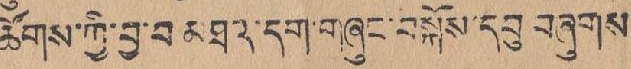ཆོགས་ཀྱི་བྱ་བ་མཐའ་དག་གཞུང་བསྐོས་དབུ་བཞུགས་
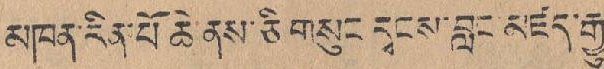མཁན་རིན་པོ་ཆེ་ནས་ཅི གསུང དྭངས་བླང་མཛད་རྒྱུ་
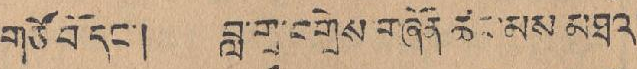གཙོ་བོ་དང་། བླ་གྲྭ་བགྲེས་གཞོན་ཚང་མས མཐའ་
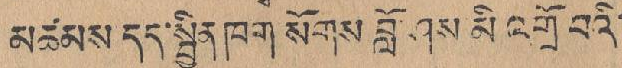མཚམས་དད་སྤྱིན་ཁག སོགས་བློ་ཤས མི འགྲོ བའི་
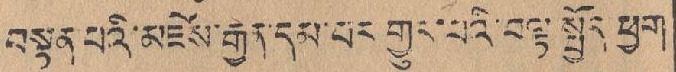བསྟན་པའི་མཛེས་རྒྱན་དམ་པར་གྱུར་པའི་བལྟ་སྤྱོད ཕྱག་
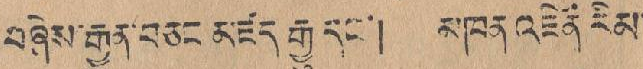བཞེས་རྒྱུན་བཅང མཛད རྒྱུ དང་། མཁན འཛིན རིམ་
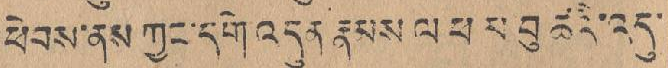ཕེབས་ནས ཀྱང་དགེ་འདུན་རྣམས་ལ ཕ མ་བུ་ཚའི་འདུ་
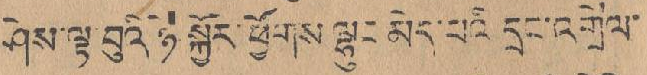ཤེས་ལྟ་བུའི་ཉེ་སྐྱོང་ཕྱོགས་ལྷུང མེད་པའི དྲང་འགྲེལ་
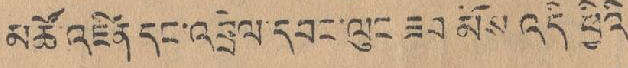མཚོ་འཛིན དང་འབྲེལ་དབང་ལུང་ཟབ མོས་འདི ཕྱིའི་
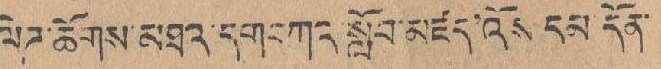ལེཊ་ཆོགས་མཐའ་དག་བཀའ་སློབ་མཛད་འོས དམ་དོན་
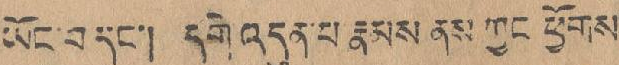ཡོང་བ དང་། དགེ་འདུན་པ་རྣམས ནས ཀྱང ཕྱོགས་
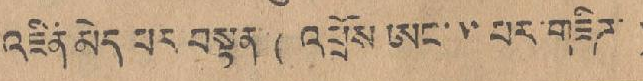འཛིན་མེད པར བསྟན་ (འཕྲོས་ཨང་ ༥ པར་གཟིཊ་)
